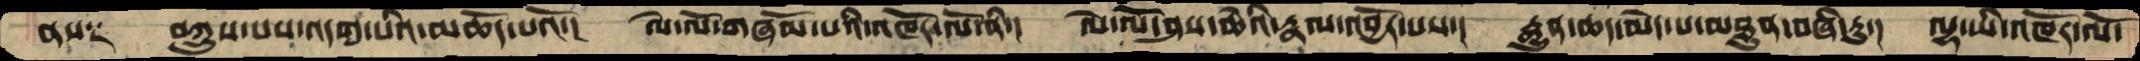ནས༑   བཀྲུས་པས་འདག་པའི་མཆོད་པའོ་།  ལེ་ལོ་གཞོམ་པའི་འཁོར་ལོ་ནི་།  ལེ་ལོ་ཤས་ཆེའི་རྣལ་འབྱོར་པས་།  རྒྱུན་ཆད་མེད་པ་མཐུན་བཞི་རུ་།  ལྷ་ཡི་འཁོར་ལོ་
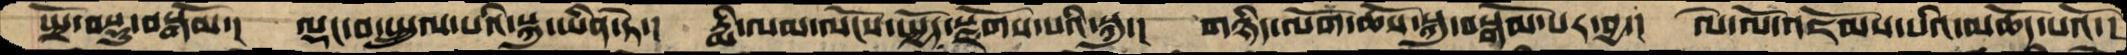སྤྲོ་བསྡུ་བསྒོམ་།  ལྡང་བ་སྤྲུལ་པའི་སྐུ་ཡིན་ཏེ་།  རྨི་ལམ་ལོངས་སྤྱོད་སྫོགས་པའི་སྐུ་།  གཉིད་ལོག་ཆོས་སྐུ་བསྒོམ་པར་བྱ་།  ལེ་ལོ་འཇོམས་པའི་མཆོད་པའོ་།
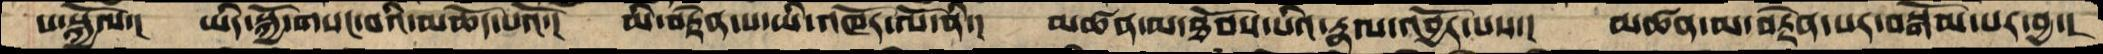པ་སྐྱེལ་།  ཡིད་སྐྱོ་གསང་བའི་མཆོད་པའོ་།  མི་བརྟེན་པ་ཡི་འཁོར་ལོ་ནི་།  མཚན་མ་ཐོབས་པའི་རྣལ་འབྱོར་པས་།  མཚན་མ་བརྟེན་པར་བསྒོམ་པར་བྱ་།
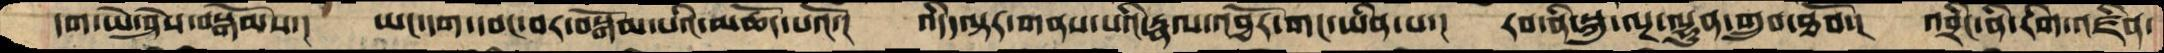དག་ཡེ་ཤེས་བསྒོམས་།  ཡང་དག་དབང་བར་བསྒོམ་པའི་མཆོད་པའོ་།  འདི་ལྟར་གནས་པའི་རྣལ་འབྱོར་གང་ཡིན་པ་།  རབ་ནི་སྐུ་ལྔ་ལྷུན་གྲུབ་ཐོབ་།  འབྲིང་ནི་རིག་འཛིན་
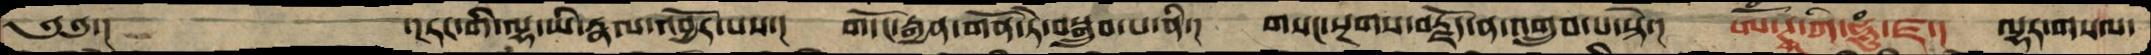༄༅་།    ་།རང་གི་ལྷ་ཡི་རྣལ་འབྱོར་པས་།  གདོང་རྒྱན་གོན་ཏེ་བསྒྲུབ་པ་ནི་།  གསང་སྔགས་བརྗོད་ན་འགྲུབ་པ་སྟེ་།  ཨོཾ་ཊཱ་ཀི་ཧཱུཾ་ཛ་།  ལྷར་གསལ་
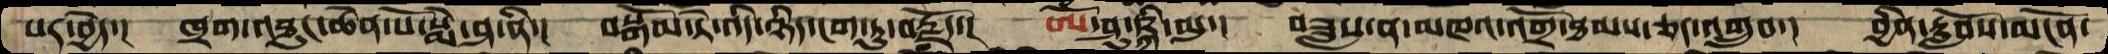པར་བྱེད་།  ཁྲག་འཐུང་ཆེན་པོ་སྨེ་ཤ་ནི་།  བསྒོམ་ཏེ་འདི་ཉིད་ངག་ཏུ་བརྗོད་།  ཨོཾ་ཤུ་ཥྐི་མུ་།  བཟླས་ན་མཁའ་འགྲོ་ཐམས་ཅད་འགྲུབ་།   བྱིན་རློབས་མངོན་
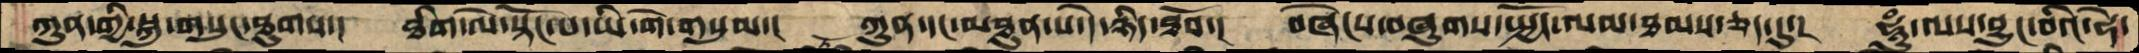ཀུན་གྱི་སྐུ་གསུང་ཐུགས་།  ཐིག་ལེ་སྟོང་པ་ཡི་གེ་གསུམ་།  ཀུན་དང་མཐུན་པ་དེ་ཉིད་ཐོབ་།  བཞེངས་བཞུགས་སྤྱོད་ལམ་ཐམས་ཅད་དུ་།  ཧཱུཾ་ལས་བྱུང་བའི་ཧེ་
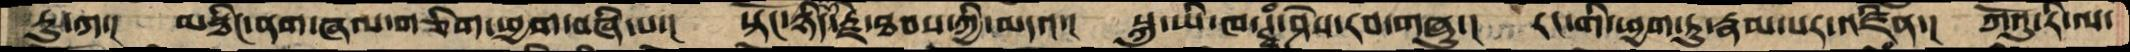རུ་ཀ་།  མཐིང་ནག་ཞལ་གཅིག་ཕྱག་བཞི་པ་།  སྟོང་ཉིད་རྗེ་ཐབས་ཀྱི་མདའ་།  སྐུ་ཡི་ཁ་ཊཱཾ་ཤེས་རབ་གཞུ་།  རང་གི་ཕྱག་ཏུ་རྣམ་པར་འཛིན་།  ཀོའུ་རི་ལ་
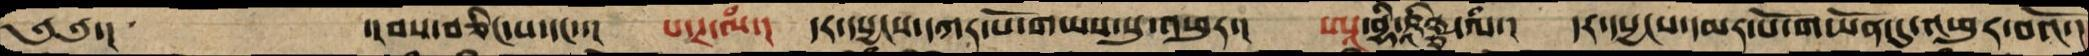༄༅་།       ་།བས་བཅིངས་པ་དང་་།  པ་ཊ་ལཾ་།  དར་དཔྱངས་དཀར་པོ་གཡས་སུ་འཕུར་།  ཨཱ་བྷི་ཥཱིཉྩ་ལཾ་།  དར་དཔྱངས་དམར་པོ་གཡོན་དུ་འཕུར་བའོ་།
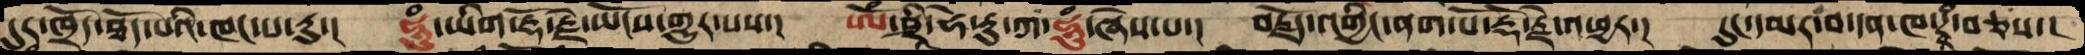དུར་ཁྲོད་ཐོད་པའི་ཁང་པ་རུ་།  ཧཱུཾ་ཡིག་རྡོ་རྗེ་ཡོངས་གྱུར་པས་།  ཨོཾ་ཤྲི་ཧེ་རུ་ཀ་ཧཱུཾ་ཞེས་པ་།  བརྗོད་འགྱིང་ནག་པོ་རྡོ་རྗེ་འཕྱར་།  དུང་དམར་བ་དན་ཁ་ཊྭཱཾ་བཅས་།
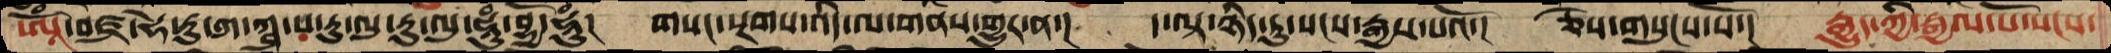ཨཱོཾ་བཛྲ་ཧེ་རུ་ཀ་ཀྴ་ས་རུ་ལུ་རུ་ལུ་ཧཱུཾ་བྷྱོ་ཧཱུཾ།  གསང་སྔགས་འདི་ལ་གནས་གྱུར་ན་།  ད་ལྟ་ཉིད་དུ་སངས་རྒྱས་པའོ་།  ཅེས་གསུངས་སོ་།  རྒྱུད་ཀྱི་རྒྱལ་པོ་སངས་
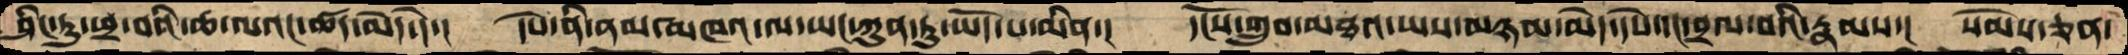ཤིང་ཏུ་ཕྲ་བའི་ཆ་ལའང་ཚད་མེད་དེ་།   དེས་ནི་ནམ་མཁའ་ལ་ཡང་ཀུན་ཏུ་ཡོད་པ་མིན་།  དངོས་གྲུབ་མཐའ་ཡས་མཉམ་མེད་དཔེ་དང་བྲལ་བའི་རྣམས་།  སེམས་ཅན་།
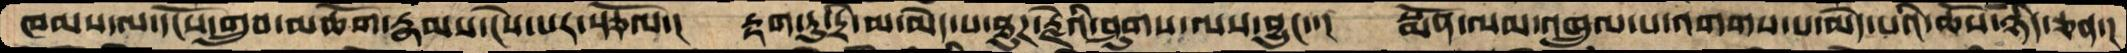ཁམས་ལ་དངོས་གྲུབ་མཆོག་རྣམས་ངེས་པར་སྩོལ་།  རྟག་ཏུ་དྲི་མ་མེད་པ་ཐུཌ་རྗེའི་ཤུགས་ལས་བྱུང་་།  སྨོན་ལམ་འཁྲུལ་པ་འགག་པ་མེད་པའི་ཆོས་ཉིད་ཅན་།
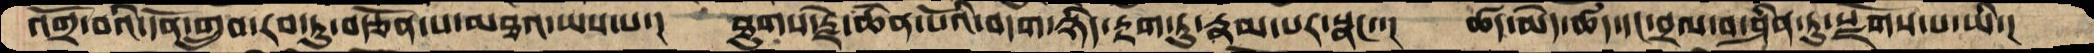འགྲོ་བའི་དོན་གྲུབ་རབ་ཏུ་བརྩོན་པ་མཐའ་ཡས་པ་།  ཐུགས་རྗེ་ཆེན་པོའི་བདག་ཉིད་རྟག་ཏུ་རྣམ་པར་སྣང་་།  ཚད་མེད་ཚད་དང་བྲལ་བ་ཤིན་ཏུ་སྫོགས་པ་ཡི་།
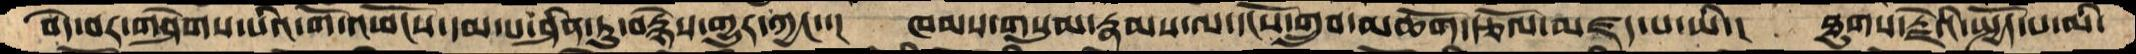བདེ་བར་གཤེགས་པའི་གོ་འཕོངས་དམ་པ་ཤིན་ཏུ་བརྙེས་གྱུར་ཀྱང་་།  ཁམས་གསུམ་རྣམས་ལ་དངོས་གྲུབ་མཆོག་རྩོལ་མཛད་པ་ཡི་།   ཐུགས་རྗེའི་སྤྱོད་པ་མི་
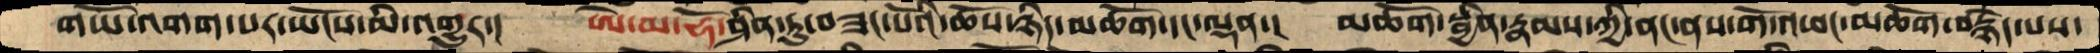གཡོ་འགག་པར་ཡོངས་མི་འགྱུར་། ཨེ་མ་ཧོ་ཤིན་ཏུ་བཟང་པོའི་ཆོས་ཉིད་མཆོག་དང་ལྡན་།  མཆོག་སྦྱིན་རྣམས་ཀྱི་ནང་ནས་གོ་འཕང་མཆོག་བརྙེད་པས་
